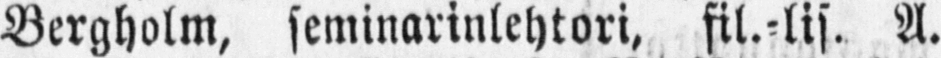Bergholm, seminarinlehtori, fil.-lis. A.
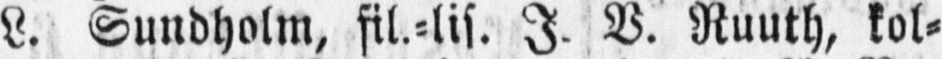L. Sundholm, fil.-lis. I. V. Ruuth, kol-
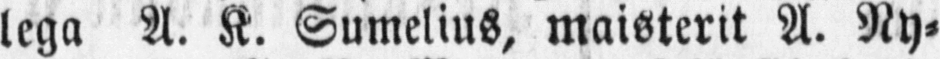lega A. K. Sumelius, maisterit A. Ny-
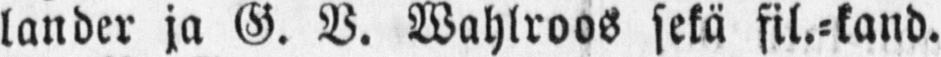lander ja G. V. Wahlroos sekä fil.-kand.
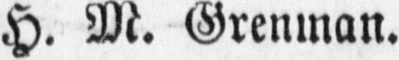H. M. Grenman.
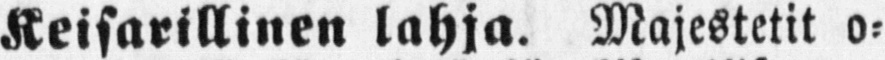Keisarillinen lahja. Majestetit o-
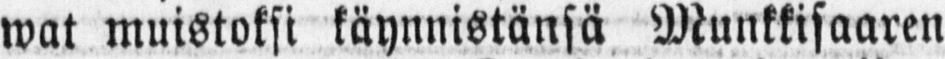wat muistoksi käynnistänsä Munkkisaaren
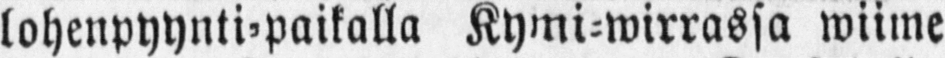lohenpyynti-paikalla Kymi-wirrassa wiime
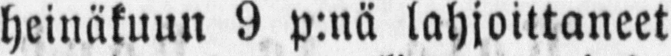heinäkuun 9 p:nä lahjoittaneet Drusyin’in
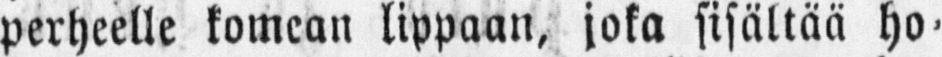perheelle komean lippaan, joka sisältää ho-
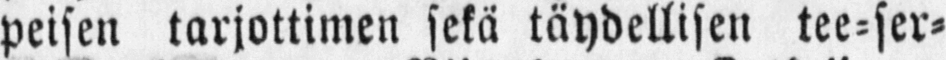peisen tarjottimen sekä täydellisen tee-ser-
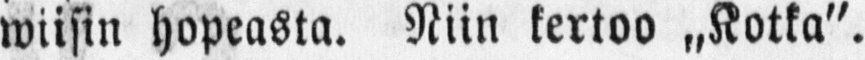wiisin hopeasta. Niin kertoo „Kotka".
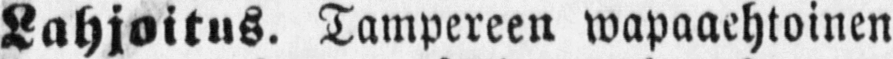Lahjoitus. Tampereen wapaaehtoinen
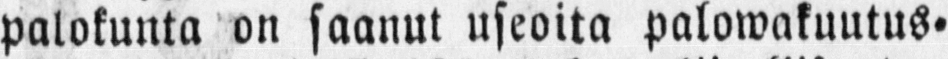palokunta on saanut useoita palowakuutus-
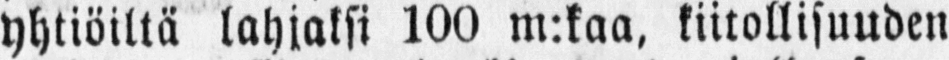yhtiöiltä lahjaksi 100 m:kaa, kiitollisuuden
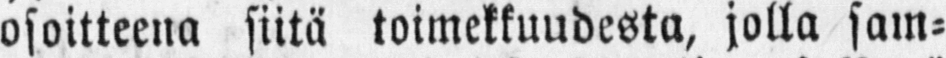osoitteena siitä toimekkuudesta, jolla sam-
